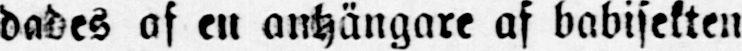dades af en anhängare af babisekten
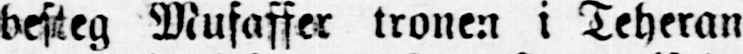besteg Mufaffer tronen i Teheran
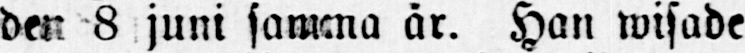den 8 juni samma år. Han wisade
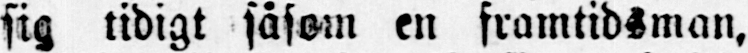sig tidigt såsom en framtidsman,
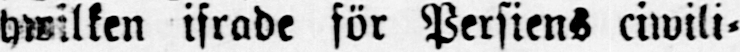hwilken ifrade för Persiens ciwili-
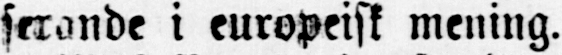serande i europeisk mening.
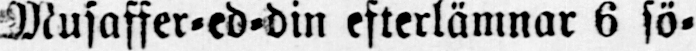Musaffer-ed-din efterlämnar 6 sö-
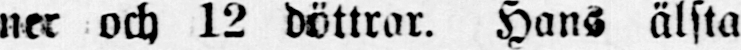ner och 12 döttrar. Hans älsta
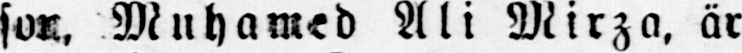son, Muhamed Ali Mirza, är
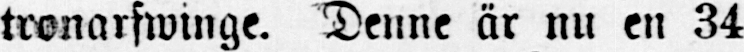tronarfwinge. Denne är nu en 34
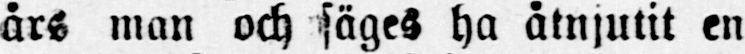års man och säges ha åtnjutit en
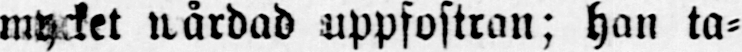mycket wårdad uppfostran; han ta-
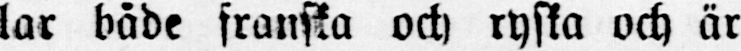lar både franska och ryska och är
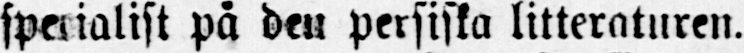specialist på den persiska litteraturen.
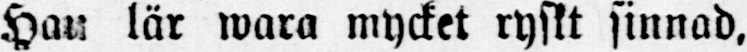Han lär wara mycket ryskt sinnad,
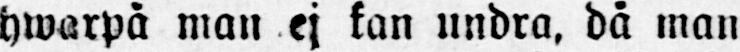hwarpå man ej kan undra, då man
